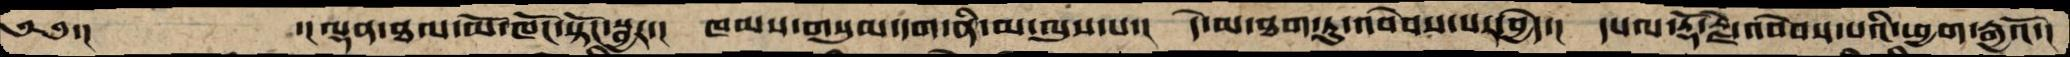༄༅་།     ་།ལྡན་ཐལ་མོ་ཁོང་སྟོང་སྦྱར་།  ཁམས་གསུམ་དག་ནི་མ་ལུས་པ་།  དེ་མ་ཐག་ཏུ་འབེབས་པར་བྱེད་།  དཔལ་རྡོ་རྗེ་འབེབས་པའི་ཕྱག་རྒྱའོ་།
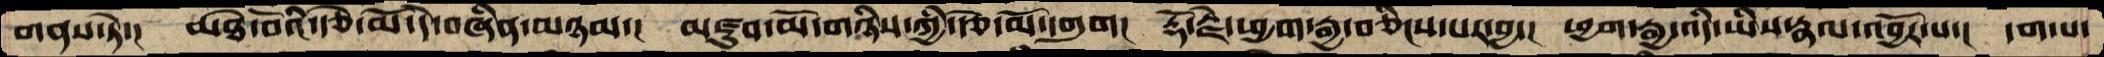གནས་ཏེ་། མཐེ་བོའི་རྩེ་མོ་དེ་བཞིན་མཉམ་།  མཛུབ་མོ་གཉིས་ཀྱི་རྩེ་མོ་དགུག།  རྡོ་རྗེ་ཕྱག་རྒྱ་བཅིངས་པར་བྱ་།  ཕྱག་རྒྱ་འདི་ཡིས་རྣལ་འབྱོར་པ་།  དག་པ་
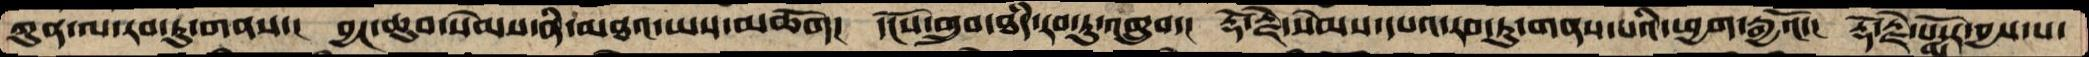ཀུན་ལ་རབ་ཏུ་གནས་།  བྱང་ཆུབ་སེམས་ནི་མཐའ་ཡས་མཆོག།  དངོས་གྲུབ་ཐཾད་རབ་་ཏུ་འགྲུབ་།  རྡོ་རྗེ་སེམས་དཔའ་རབ་ཏུ་གནས་པའི་ཕྱག་རྒྱའོ་།  རྡོ་རྗེ་པདྨོར་བྱས་པ་
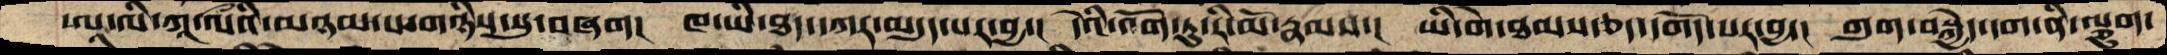ཨཱ་ལི་ཀཱ་ལའི་མཉམ་པ་གཉིས་སུ་བཞག།  ཁ་ཡི་ཐད་དཀར་མདུད་པར་བྱ་།  དེའི་འོག་ཏུ་རི་མོ་རྣམས་།  ཡི་གེ་ཐམས་ཅད་དགོད་པར་བྱ་།  གུག་བསྐྱེད་དག་ནི་ལྕུག་
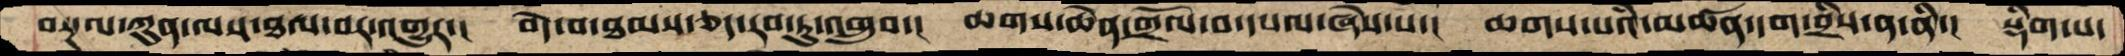བསྔལ་ཀུན་ལས་ཐལ་བར་འགྱུར་།  བདེ་བ་ཐམས་ཅད་རབ་ཏུ་འགྲུབ་།  ཆགས་ཆེན་གྲོལ་བ་དཔལ་ཞེས་པ་།  ཆགས་པའི་མཚན་དག་བྲིས་ན་ནི་།  སྡིག་པ་
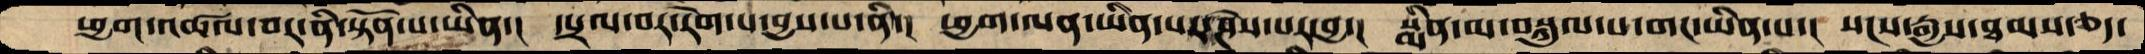ཕྱག་འཚལ་བར་ནི་སྟོན་པ་ཡིན་།  དཔྲལ་བར་རེག་པ་བྱས་པ་ནི་།  ཕྱག་ལན་ཡིན་པར་ཤེས་པར་་བྱ་།  སྨིན་མ་བསྐུལ་པ་གང་ཡིན་པ་།  སངས་རྒྱས་ཐམས་ཅད་
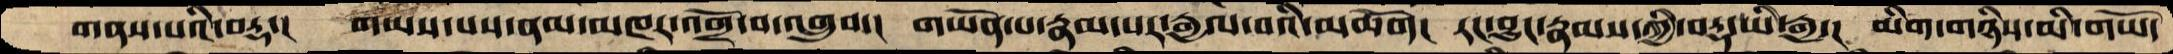གནས་པའི་བརྡ་།  གཡས་པས་ནམ་མཁར་འགྲོ་བ་འགྲུབ་།  གཡོན་པ་རྣམ་པར་རྒྱལ་བའི་མཆོག།  རང་བྱུང་རྣམས་ཀྱི་བརྡ་ཡི་རྒྱ་།  མིག་གཉིས་མི་གཡོ་
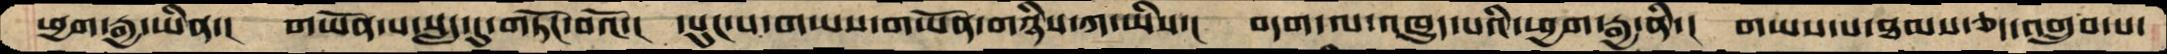ཕྱག་རྒྱ་ཡིན་།  གཡོན་པ་སླད་དུ་གཏོང་བའོ་།  དཔུང་པ་གཡས་གཡོན་གཉིས་ཀ་ཡིན་།  བདག་ལ་འཁྱུད་པའི་ཕྱག་རྒྱ་ནི་།  གཡས་པ་ཐམས་ཅད་འགྲུབ་པ་
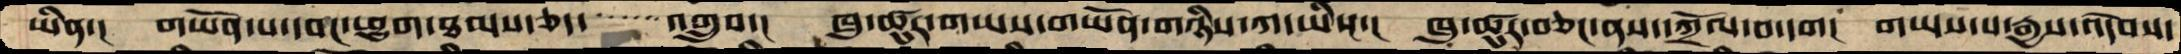ཡིན་།  གཡོན་པ་དབང་ཕྱུག་ཐམས་ཅད་    འགྲུབ་།  ཁུ་ཚུར་གཡས་གཡོན་གཉིས་ཀ་ཡིས་།  ཁུ་ཚུར་བཅང་ནས་དཀྲོལ་བ་དག།  གཡས་པ་རྒྱས་འདེབས་
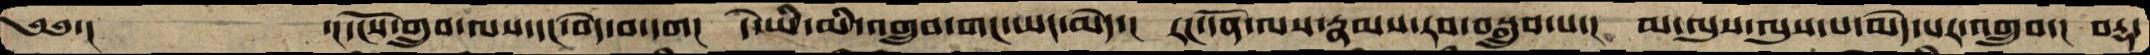༄༅་།      ་།དངོས་གྲུབ་ལས་དང་བདེ་བ་དག།  དེ་ཡི་མི་འགྲུབ་གང་ཡང་མེད་།  རང་དོན་ལས་རྣམས་རབ་བསྒྲུབ་པ་།  མ་ལུས་ལུས་པ་མེད་པར་འགྲུབ་།  བརྡ་
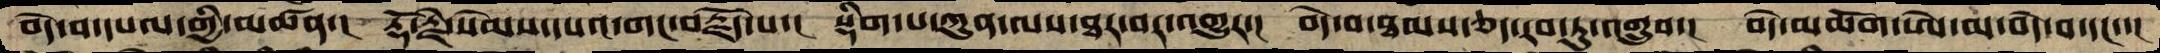བདེ་བ་དཔལ་གྱི་མཚན་།  རྡོ་རྗེ་སེམས་དཔའ་གང་བརྗོད་པ་།  སྡིག་པ་ཀུན་ལས་ཐར་བར་འགྱུར་།  བདེ་བ་ཐམས་ཅད་རབ་ཏུ་འགྲུབ་།  བདེ་མཆོག་ཨེ་མ་བདེ་བ་དང་་།
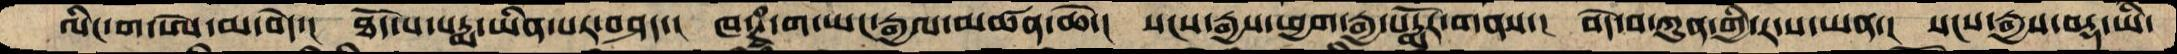ལིང་ག་ཨེ་མ་བདེ་།  ཐོད་པ་པདྨ་ཡིན་པར་བཤད་།  ཁ་ཊྭཾ་ག་ཡང་རྒྱལ་མཚན་ཆེ་།  སངས་རྒྱས་ཕྱག་རྒྱ་པདྨོར་གནས་།  བདེ་བ་ཀུན་གྱི་ར་ས་ཡན་།  སངས་རྒྱས་བརྡ་ཡི་
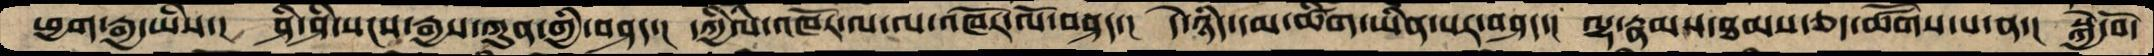ཕྱག་རྒྱ་ཡིས་།  ཤི་ཤི་སངས་རྒྱས་ཀུན་གྱི་བཤད་།  དཀྱིལ་འཁོར་ལ་ལ་འཁོར་ལོ་བཤད་།  དེ་ཉིད་དམ་ཚིག་ཡིན་པར་བཤད་།  ལྷ་རྣམས་ཐམས་ཅད་ཚོགས་པ་ན་།  སྐྱེ་བོ་
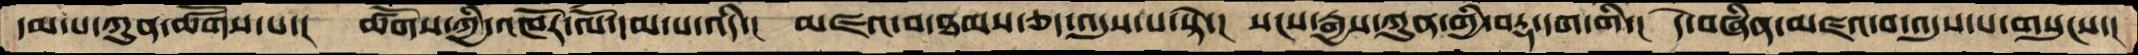དམ་པ་ཀུན་ཚོགས་པ་།  ཚོགས་ཀྱི་འཁོར་ལོ་དམ་པ་འདི་།།   མཛའ་བ་ཐམས་ཅད་འདུས་པ་སྟེ་།  སངས་རྒྱས་ཀུན་གྱི་བརྡ་དག་གི་།  དེ་བཞིན་མཛའ་བ་འདུས་པ་གསུངས་།
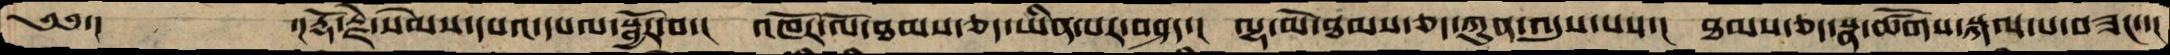༄༅་།      ་།རྡོ་རྗེ་སེམས་དཔའ་དཔལ་སྦྱོར་བ་།  འཁོར་ལོ་ཐམས་ཅད་ཡིན་པར་བཤད་།  ལྷ་མོ་ཐམས་ཅད་ཀུན་འདུས་པས་།  ཐམས་ཅད་སྣ་ཚོགས་སྐལ་པ་བཟང་་།།
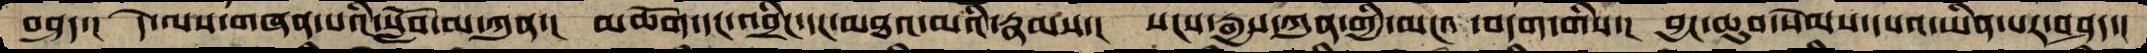བཤད་།  དེ་ལས་གཞན་པའི་སློབ་མ་ཀུན་།  མཆོག་དང་འབྲིང་དང་མཐའ་མའི་རྣམས་།  སངས་རྒྱས་ཀུན་གྱི་མངའ་བདག་གིས་།  བྱང་ཆུབ་སེམས་དཔའ་ཡིན་པར་བཤད་།
